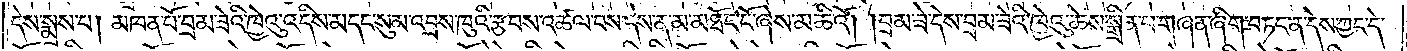དེས་སྨྲས་པ། མཁན་པོ་བྲམ་ཟེའི་ཁྱེའུ་འདིས་མདང་སུམ་འབྲས་ཁུའི་རྩབས་འཚལ་བས་དེས་ན་མ་མཐོང་ངོ་ཞེས་མཆིའོ། །བྲམ་ཟེའི་དེས་བྲམ་ཟེའི་ཁྱེའུ་ཆེས་སྒྲིན་པ་གཞན་ཞིག་བཏང་ན་དེས་ཀྱང་དེ་
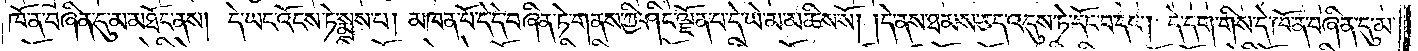ཁོ་ན་བཞིན་དུ་མ་མཐོང་ནས། དེ་ཡང་འོངས་ཏེ་སྨྲས་པ། མཁན་པོ་དེ་དེ་བཞིན་ཏེ་གནས་ཀྱི་ཤིང་ལྗོན་པ་དེ་ཡེ་མ་མཆིས་སོ། །དེ་ནས་ཐམས་ཅད་འདུས་ཏེ་དོང་བ་དང༌། དེ་དག་གིས་དེ་ཁོ་ན་བཞིན་དུ་མ་
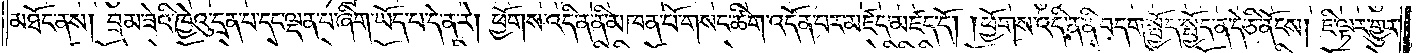མཐོང་ནས། བྲམ་ཟེའི་ཁྱེའུ་དྲན་པ་དང་ལྡན་པ་ཞིག་ཡོད་པ་དེ་ན་རེ། ཕྱོགས་འདི་ན་ནི་མཁན་པོ་གསང་ཚིག་འདོན་པར་མཛད་མཛད་དོ། །ཕྱོགས་འདི་ན་ནི་བདག་སྤྱོད་སྤྱོད་ན་དེ་ཅི་ནོངས། ཇི་ལྟར་གྱུར་
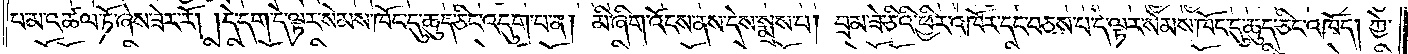པ་མ་འཚལ་ཏོ་ཞེས་ཟེར་རོ། །དེ་དག་དེ་ལྟར་སེམས་ཁོང་དུ་ཆུད་ཅིང་འདུག་པ་ན། མི་ཞིག་འོངས་ནས་དེས་སྨྲས་པ། བྲམ་ཟེ་ཅིའི་ཕྱིར་འཁོར་དང་བཅས་པ་དེ་ལྟར་སེམས་ཁོང་དུ་ཆུད་ཅིང་འཁོད། ཀྱེ་
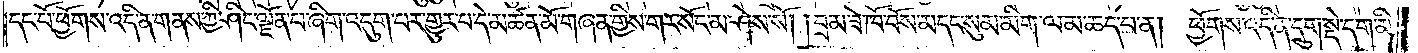དང་པོ་ཕྱོགས་འདི་ན་གནས་ཀྱི་ཤིང་ལྗོན་པ་ཞིག་འདུག་པར་གྱུར་པ་དེ་མཚན་མོ་གཞན་གྱིས་གར་སོང་མ་ཤེས་སོ། །བམ་ཟེ་ཁོ་བོས་མདང་སུམ་མིག་ལ་མ་ཆད་པ་ན། ཕྱོགས་འདི་ན་དྲུག་སྡེ་དག་མི་
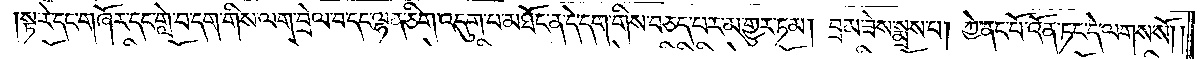སྟ་རེ་དང་གཞོར་དང་གླེ་བ་དག་གིས་ལག་བྲེལ་བ་དང་ལྷན་ཅིག་འདུག་པ་མཐོང་ན་དེ་དག་གིས་བཅད་པར་མ་གྱུར་ཏམ། བྲམ་ཟེས་སྨྲས་པ། ཀྱེ་ནང་པོ་འོན་ཏང་དེ་ལགས་སོ། །
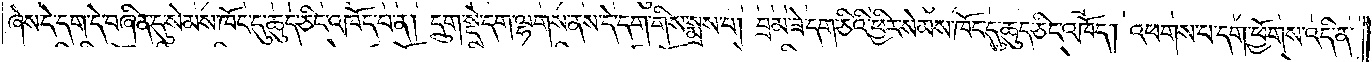ཞེས་དེ་དག་དེ་བཞིན་དུ་སེམས་ཁོང་དུ་ཆུད་ཅིང་འཁོད་པ་ན། དྲུག་སྡེ་དག་ལྷགས་ནས་དེ་དག་གིས་སྨྲས་པ། བྲམ་ཟེ་དག་ཅིའི་ཕྱིར་སེམས་ཁོང་དུ་ཆུད་ཅིང་འཁོད། འཕགས་པ་དག་ཕྱོགས་འདི་ན་
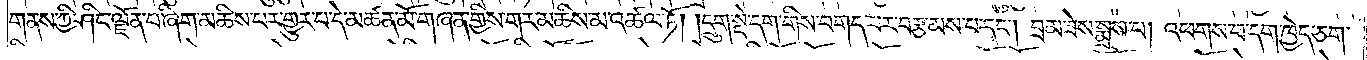གནས་ཀྱི་ཤིང་ལྗོན་པ་ཞིག་མཆིས་པར་གྱུར་པ་དེ་མཚན་མོ་གཞན་གྱིས་གར་མཆིས་མ་འཚལ་ཏོ། །དྲུག་སྡེ་དག་གིས་བགད་པར་བརྩམས་པ་དང༌། བྲམ་ཟེས་སྨྲས་པ། འཕགས་པ་དག་ཁྱེད་ཅག་
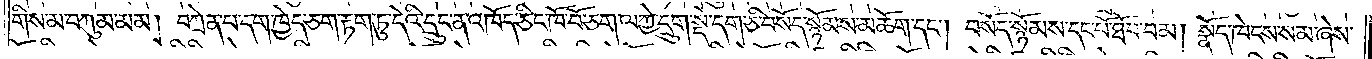གིས་མ་བཀུམ་མམ། བཀྲེན་པ་དག་ཁྱེད་ཅག་རྟག་ཏུ་དེའི་དྲུང་ན་འཁོད་ཅིང་ཁོ་བོ་ཅག་ལ་ཀྱེ་དྲུག་སྡེ་དག་ཅི་བསོད་སྙོམས་མཆོག་དང༌། བསོད་སྙོམས་དང་པོ་ཐོབ་བམ། སྣོད་ཁེངས་སམ་ཞེས་
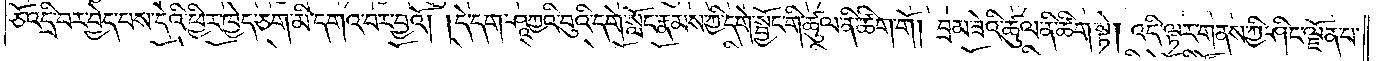ཅོ་འདྲི་བར་བྱེད་པས་དེའི་ཕྱིར་ཁྱེད་ཅག་མི་དགའ་བར་བྱའོ། །དེ་དག་ཤཱཀྱའི་བུའི་དགེ་སློང་རྣམས་ཀྱི་དགེ་སྦྱོང་གི་ཚུལ་ནི་ཚིག་གོ། བྲམ་ཟེའི་ཚུལ་ནི་ཚིག་སྟེ། འདི་ལྟར་གནས་ཀྱི་ཤིང་ལྗོན་པ་
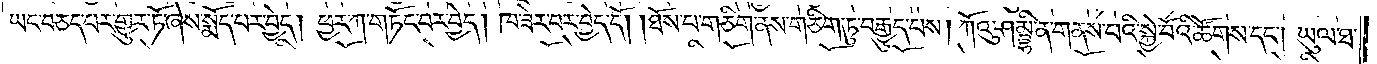ཡང་བཅད་པར་གྱུར་ཏོ་ཞེས་སྨོད་པར་བྱེད། ཕྱར་ཀ་གཏོང་བར་བྱེད། ཁ་ཟེར་བར་བྱེད་དོ། །ཐོས་པ་གཅིག་ནས་གཅིག་ཏུ་བརྒྱུད་པས། ཀོའུ་ཤམྦྷི་ན་གནས་པའི་སྐྱེ་བོའི་ཚོགས་དང༌། ཡུལ་ཐ་
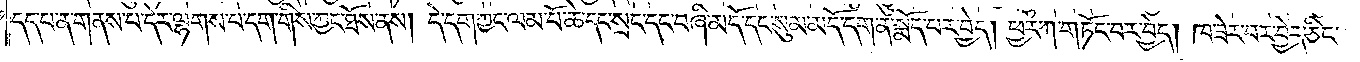དད་པ་ན་གནས་པ་དེར་ལྷགས་པ་དག་གིས་ཀྱང་ཐོས་ནས། དེ་དག་ཀྱང་ལམ་པོ་ཆེ་དང་སྲང་དང་བཞི་མདོ་དང་སུམ་མདོ་དག་ན་སྨོད་པར་བྱེད། ཕྱར་ཀ་གཏོང་བར་བྱེད། ཁ་ཟེར་བར་བྱེད་ཅིང་
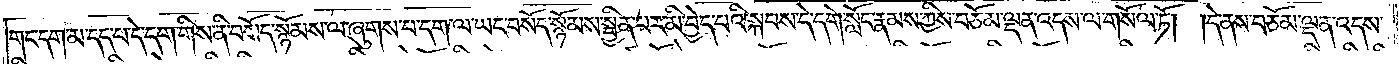གང་དག་མ་དད་པ་དེ་དག་གིས་ནི་བསོད་སྙོམས་ལ་ཞུགས་པ་དག་ལ་ཡང་བསོད་སྙོམས་སྦྱིན་པར་མི་བྱེད་པའི་སྐབས་དེ་དགེ་སློང་རྣམས་ཀྱིས་བཅོམ་ལྡན་འདས་ལ་གསོལ་ཏོ། །དེ་ནས་བཅོམ་ལྡན་འདས་
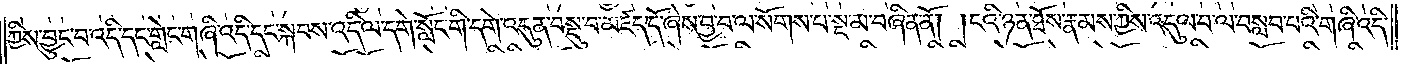ཀྱིས་བྱུང་བ་འདི་དང་གླེང་གཞི་འདི་དང་སྐབས་འདི་ལ་དགེ་སློང་གི་དགེ་འདུན་བསྡུ་བ་མཛད་དོ་ཞེས་བྱ་བ་ལ་སོགས་པ་སྔ་མ་བཞིན་ནོ། །ངའི་ཉན་ཐོས་རྣམས་ཀྱིས་འདུལ་བ་ལ་བསླབ་པའི་གཞི་འདི་
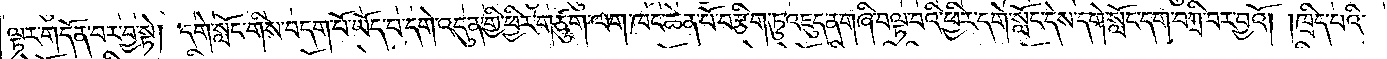ལྟར་གདོན་བར་བྱ་སྟེ། དགེ་སློང་གིས་བདག་པོ་ཡོད་པ་དགེ་འདུན་གྱི་ཕྱིར་གཙུག་ལག་ཁང་ཆེན་པོ་བརྩིག་ཏུ་འཇུད་ན་གཞི་བལྟ་བའི་ཕྱིར་དགེ་སློང་དེས་དགེ་སློང་དག་བཀྲི་བར་བྱའོ། །ཁྲིད་པའི་
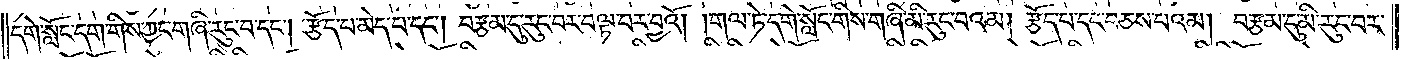དགེ་སློང་དག་གིས་ཀྱང་གཞི་རུང་བ་དང༌། རྩོད་པ་མེད་པ་དང༌། བརྩམ་དུ་རུང་བར་བལྟ་བར་བྱའོ། །གལ་ཏེ་དགེ་སློང་གིས་གཞི་མི་རུང་བའམ། རྩོད་པ་དང་བཅས་པའམ། བརྩམ་དུ་མི་རུང་བར་
